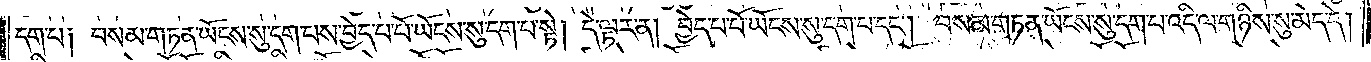དག་པ། བསམ་གཏན་ཡོངས་སུ་དག་པས་བྱེད་པ་པོ་ཡོངས་སུ་དག་པ་སྟེ། དེ་ལྟར་ན། བྱེད་པ་པོ་ཡོངས་སུ་དག་པ་དང༌། བསམ་གཏན་ཡོངས་སུ་དག་པ་འདི་ལ་གཉིས་སུ་མེད་དེ།
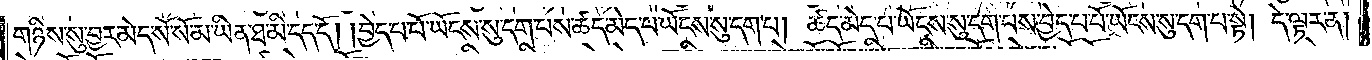གཉིས་སུ་བྱར་མེད་སོ་སོ་མ་ཡིན་ཐ་མི་དད་དོ། །བྱེད་པ་པོ་ཡོངས་སུ་དག་པས་ཚད་མེད་པ་ཡོངས་སུ་དག་པ། ཚད་མེད་པ་ཡོངས་སུ་དག་པས་བྱེད་པ་པོ་ཡོངས་སུ་དག་པ་སྟེ། དེ་ལྟར་ན།
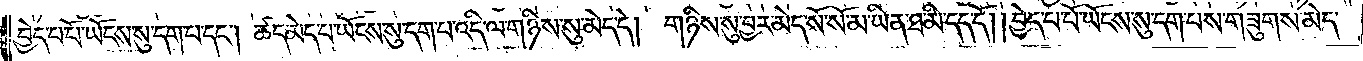བྱེད་པ་པོ་ཡོངས་སུ་དག་པ་དང༌། ཚད་མེད་པ་ཡོངས་སུ་དག་པ་འདི་ལ་གཉིས་སུ་མེད་དེ། གཉིས་སུ་བྱར་མེད་སོ་སོ་མ་ཡིན་ཐ་མི་དད་དོ། །བྱེད་པ་པོ་ཡོངས་སུ་དག་པས་གཟུགས་
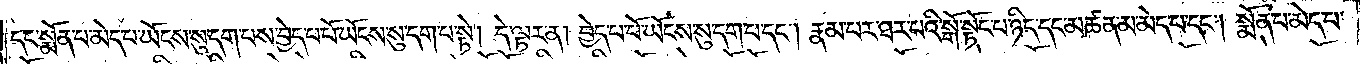དང་སྨོན་པ་མེད་པ་ཡོངས་སུ་དག་པས་བྱེད་པ་པོ་ཡོངས་སུ་དག་པ་སྟེ། དེ་ལྟར་ན། བྱེད་པ་པོ་ཡོངས་སུ་དག་པ་དང༌། རྣམ་པར་ཐར་པའི་སྒོ་སྟོང་པ་ཉིད་དང་མཚན་མ་མེད་པ་དང༌། སྨོན་པ་མེད་པ་
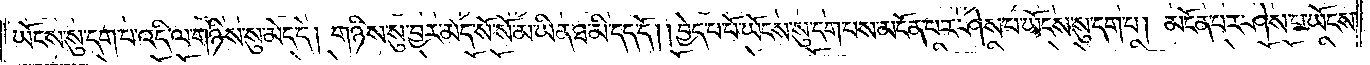ཡོངས་སུ་དག་པ་འདི་ལ་གཉིས་སུ་མེད་དེ། གཉིས་སུ་བྱར་མེད་སོ་སོ་མ་ཡིན་ཐ་མི་དད་དོ། །བྱེད་པ་པོ་ཡོངས་སུ་དག་པས་མངོན་པར་ཤེས་པ་ཡོངས་སུ་དག་པ། མངོན་པར་ཤེས་པ་ཡོངས་
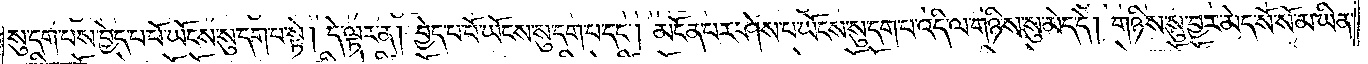སུ་དག་པས་བྱེད་པ་པོ་ཡོངས་སུ་དག་པ་སྟེ། དེ་ལྟར་ན། བྱེད་པ་པོ་ཡོངས་སུ་དག་པ་དང༌། མངོན་པར་ཤེས་པ་ཡོངས་སུ་དག་པ་འདི་ལ་གཉིས་སུ་མེད་དེ། གཉིས་སུ་བྱར་མེད་སོ་སོ་མ་ཡིན་
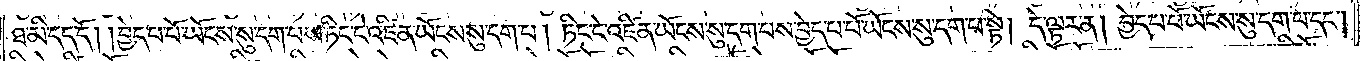ཐ་མི་དད་དོ། །བྱེད་པ་པོ་ཡོངས་སུ་དག་པ་ཏིང་ངེ་འཛིན་ཡོངས་སུ་དག་པ། ཏིང་ངེ་འཛིན་ཡོངས་སུ་དག་པས་བྱེད་པ་པོ་ཡོངས་སུ་དག་པ་སྟེ། དེ་ལྟར་ན། བྱེད་པ་པོ་ཡོངས་སུ་དག་པ་དང༌།
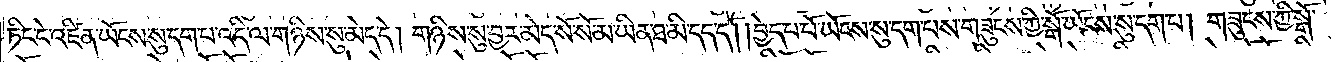ཏིང་ངེ་འཛིན་ཡོངས་སུ་དག་པ་འདི་ལ་གཉིས་སུ་མེད་དེ། གཉིས་སུ་བྱར་མེད་སོ་སོ་མ་ཡིན་ཐ་མི་དད་དོ། །བྱེད་པ་པོ་ཡོངས་སུ་དག་པས་གཟུངས་ཀྱི་སྒོ་ཡོངས་སུ་དག་པ། གཟུངས་ཀྱི་སྒོ་
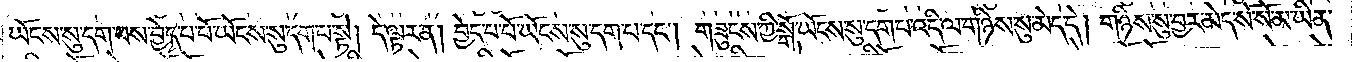ཡོངས་སུ་དག་པས་བྱེད་པ་པོ་ཡོངས་སུ་དག་པ་སྟེ། དེ་ལྟར་ན། བྱེད་པ་པོ་ཡོངས་སུ་དག་པ་དང༌། གཟུངས་ཀྱི་སྒོ་ཡོངས་སུ་དག་པ་འདི་ལ་གཉིས་སུ་མེད་དེ། གཉིས་སུ་བྱར་མེད་སོ་སོ་མ་ཡིན་
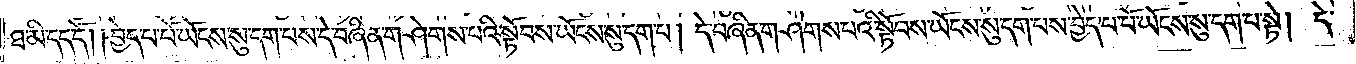ཐ་མི་དད་དོ། །བྱེད་པ་པོ་ཡོངས་སུ་དག་པས་དེ་བཞིན་གཤེགས་པའི་སྟོབས་ཡོངས་སུ་དག་པ། དེ་བཞིན་གཤེགས་པའི་སྟོབས་ཡོངས་སུ་དག་པས་བྱེད་པ་པོ་ཡོངས་སུ་དག་པ་སྟེ། དེ་
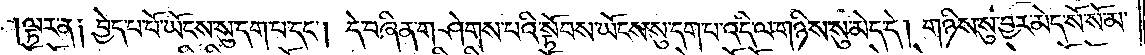ལྟར་ན༑ བྱེད་པ་པོ་ཡོངས་སུ་དག་པ་དང༌། དེ་བཞིན་གཤེགས་པའི་སྟོབས་ཡོངས་སུ་དག་པ་འདི་ལ་གཉིས་སུ་མེད་དེ། གཉིས་སུ་བྱར་མེད་སོ་སོ་མ་
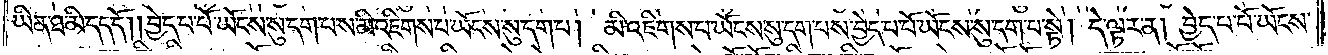ཡིན་ཐ་མི་དད་དོ། །བྱེད་པ་པོ་ཡོངས་སུ་དག་པས་མི་འཇིགས་པ་ཡོངས་སུ་དག་པ། མི་འཇིགས་པ་ཡོངས་སུ་དག་པས་བྱེད་པ་པོ་ཡོངས་སུ་དག་པ་སྟེ། དེ་ལྟར་ན། བྱེད་པ་པོ་ཡོངས་
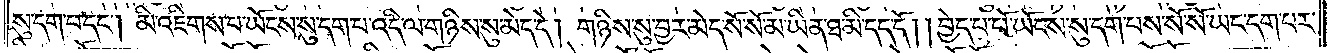སུ་དག་པ་དང༌། མི་འཇིགས་པ་ཡོངས་སུ་དག་པ་འདི་ལ་གཉིས་སུ་མེད་དེ། གཉིས་སུ་བྱར་མེད་སོ་སོ་མ་ཡིན་ཐ་མི་དད་དོ། །བྱེད་པ་པོ་ཡོངས་སུ་དག་པས་སོ་སོ་ཡང་དག་པར་
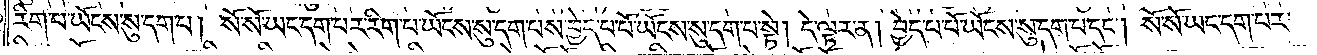རིག་པ་ཡོངས་སུ་དག་པ། སོ་སོ་ཡང་དག་པར་རིག་པ་ཡོངས་སུ་དག་པས་བྱེད་པ་པོ་ཡོངས་སུ་དག་པ་སྟེ། དེ་ལྟར་ན། བྱེད་པ་པོ་ཡོངས་སུ་དག་པ་དང༌། སོ་སོ་ཡང་དག་པར་
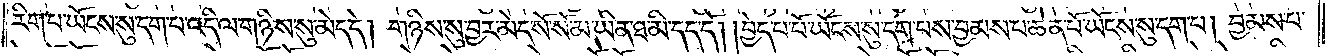རིག་པ་ཡོངས་སུ་དག་པ་འདི་ལ་གཉིས་སུ་མེད་དེ། གཉིས་སུ་བྱར་མེད་སོ་སོ་མ་ཡིན་ཐ་མི་དད་དོ། །བྱེད་པ་པོ་ཡོངས་སུ་དག་པས་བྱམས་པ་ཆེན་པོ་ཡོངས་སུ་དག་པ། བྱམས་པ་
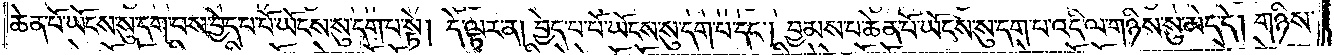ཆེན་པོ་ཡོངས་སུ་དག་པས་བྱེད་པ་པོ་ཡོངས་སུ་དག་པ་སྟེ། དེ་ལྟར་ན། བྱེད་པ་པོ་ཡོངས་སུ་དག་པ་དང༌། བྱམས་པ་ཆེན་པོ་ཡོངས་སུ་དག་པ་འདི་ལ་གཉིས་སུ་མེད་དེ། གཉིས་
